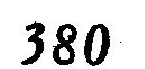380
